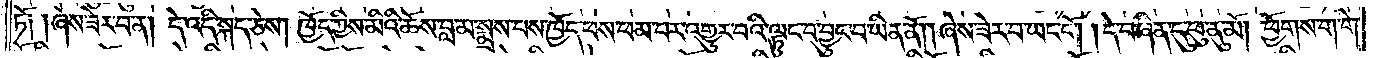ཏོ། །ཞེས་ཟེར་བ་ན། དེ་འདི་སྐད་ཅེས། ཁྱོད་ཀྱིས་མིའི་ཆོས་བླ་མ་སྨྲས་པས་ཁྱོད་ཕས་ཕམ་པར་འགྱུར་བའི་ལྟུང་བ་བྱུང་བ་ཡིན་ནོ། །ཞེས་ཟེར་བ་ཡང་ངོ༌། །དེ་བཞིན་དུ་ཕུ་ནུ་མོ། ཕྱོགས་ག་གེ་
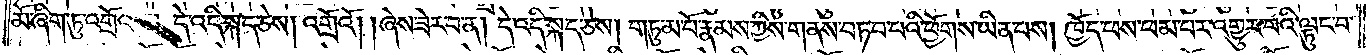མོ་ཞིག་ཏུ་འགྲོའམ། དེ་འདི་སྐད་ཅེས། འགྲོའོ། །ཞེས་ཟེར་བ་ན། དེ་འདི་སྐད་ཅེས། གཏུམ་པོ་རྣམས་ཀྱིས་གནས་བཏབ་པའི་ཕྱོགས་ཡིན་པས། ཁྱོད་ཕས་ཕམ་པར་འགྱུར་བའི་ལྟུང་བ་
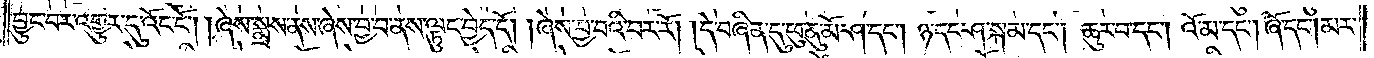བྱུང་བར་འགྱུར་དུ་འོང་ངོ༌། །ཞེས་སྨྲས་ནས་ཞེས་བྱ་བ་ནས་ལྟུང་བྱེད་དོ། །ཞེས་བྱ་བའི་བར་རོ། །དེ་བཞིན་དུ་ཕུ་ནུ་མོ་ཤ་དང༌། ཉ་དང་ཤ་སྐམ་དང༌། ཆུར་བ་དང༌། འོ་མ་དང༌། ཞོ་དང༌། མར་
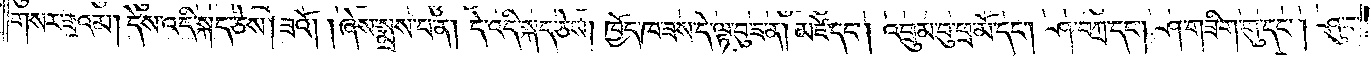གསར་ཟའམ། དེས་འདི་སྐད་ཅེས། ཟའོ། །ཞེས་སྨྲས་པ་ན། དེ་འདི་སྐད་ཅེས། ཁྱོད་ཁ་ཟས་དེ་ལྟ་བུ་ཟ་ན། མཛེ་དང༌། འབྲུམ་བུ་ཕྲ་མོ་དང༌། ཤ་བཀྲ་དང༌། ཤ་གཟིག་གུ་དང༌། ཤུ་བ་
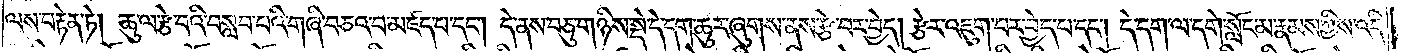ལས་བརྟེན་ཏེ། ཆུ་ལ་རྩེ་བའི་བསླབ་པའི་གཞི་བཅའ་བ་མཛད་པ་དང༌། དེ་ནས་བཅུ་གཉིས་སྡེ་དེ་དག་ཆུར་ཞུགས་ནས་རྩེ་བར་བྱེད། རྩེར་འཇུག་པར་བྱེད་པ་དང༌། དེ་དག་ལ་དགེ་སློང་མ་རྣམས་ཀྱིས་འདི་
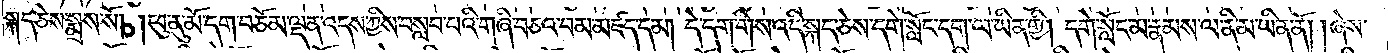སྐད་ཅེས་སྨྲས་སོ། །ཕུ་ནུ་མོ་དག་བཅོམ་ལྡན་འདས་ཀྱིས་བསླབ་པའི་གཞི་བཅའ་བམ་མཛད་དམ། དེ་དག་གིས་འདི་སྐད་ཅེས་དགེ་སློང་དག་ལ་ཡིན་གྱི། དགེ་སློང་མ་རྣམས་ལ་ནི་མ་ཡིན་ནོ། །ཞེས་
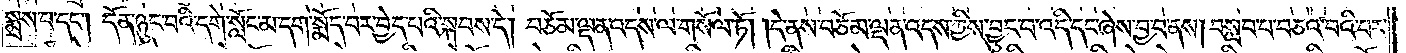སྨྲས་པ་དང༌། དོན་ཉུང་བའི་དགེ་སློང་མ་དག་སྨོད་པར་བྱེད་པའི་སྐབས་དེ། བཅོམ་ལྡན་འདས་ལ་གསོལ་ཏོ། །དེ་ནས་བཅོམ་ལྡན་འདས་ཀྱིས་བྱུང་བ་འདི་དང་ཞེས་བྱ་བ་ནས། བསླབ་པ་བཅའ་བའི་བར་
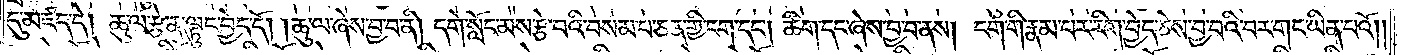དུ་མཛད་དེ། ཆུ་ལ་རྩེ་ན་ལྟུང་བྱེད་དོ། །ཆུ་ལ་ཞེས་བྱ་བ་ནི། དགེ་སློང་མས་རྩེ་བའི་བསམ་པ་ཅན་གྱི་ངག་དང༌། ཚིག་དང་ཞེས་བྱ་བ་ནས། ངག་གི་རྣམ་པར་རིག་བྱེད་ཅེས་བྱ་བའི་བར་གང་ཡིན་པའོ། །
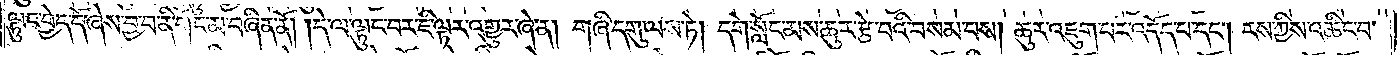ལྟུང་བྱེད་དོ་ཞེས་བྱ་བ་ནི་གོང་མ་བཞིན་ནོ། །དེ་ལ་ལྟུང་བར་ཇི་ལྟར་འགྱུར་ཞེ་ན། གཞི་དགུ་ལས་ཏེ། དགེ་སློང་མས་ཆུར་རྩེ་བའི་བསམ་པས། ཆུར་འཇུག་པར་འདོད་པ་དང༌། རས་ཀྱིས་འཆིང་བ་
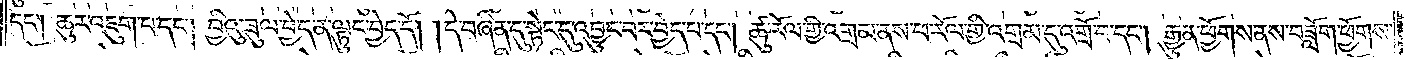དང༌། ཆུར་འཇུག་པ་དང༌། བྱིའུ་ཟུལ་བྱེད་ན་ལྟུང་བྱེད་དོ། །དེ་བཞིན་དུ་སྟེང་དུ་འབྱུང་བར་བྱེད་པ་དང༌། ཚུ་རོལ་གྱི་འགྲམ་ནས་ཕ་རོལ་གྱི་འགྲམ་དུ་འགྲོ་བ་དང༌། རྒྱུན་ཕྱོགས་ནས་བཟློག་ཕྱོགས་
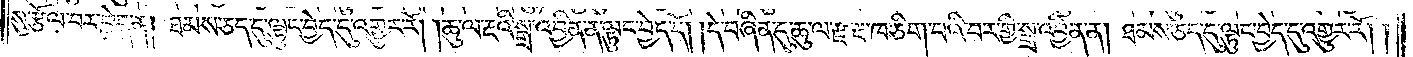སུ་རྩོལ་བར་བྱེད་ན། ཐམས་ཅད་དུ་ལྟུང་བྱེད་དུ་འགྱུར་རོ། །ཆུ་ལ་རྔའི་སྒྲ་འབྱིན་ན་ལྟུང་བྱེད་དོ། །དེ་བཞིན་དུ་ཆུ་ལ་རྫ་རྔ་ཁ་ཅིག་པའི་བར་གྱི་སྒྲ་འབྱིན་ན། ཐམས་ཅད་དུ་ལྟུང་བྱེད་དུ་འགྱུར་རོ། །
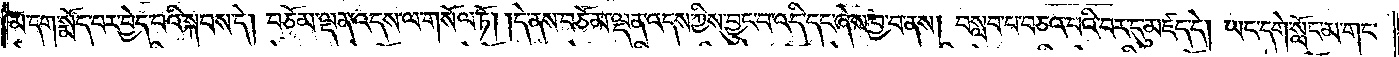མ་དག་སྨོད་པར་བྱེད་པའི་སྐབས་དེ། བཅོམ་ལྡན་འདས་ལ་གསོལ་ཏོ། །དེ་ནས་བཅོམ་ལྡན་འདས་ཀྱིས་བྱུང་བ་འདི་དང་ཞེས་བྱ་བ་ནས། བསླབ་པ་བཅའ་བའི་བར་དུ་མཛད་དེ། ཡང་དགེ་སློང་མ་གང་
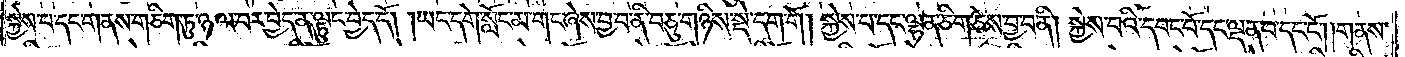སྐྱེས་པ་དང་གནས་གཅིག་ཏུ་ཉལ་བར་བྱེད་ན་ལྟུང་བྱེད་དོ། །ཡང་དགེ་སློང་མ་གང་ཞེས་བྱ་བ་ནི་བཅུ་གཉིས་སྡེ་དག་གོ། སྐྱེས་པ་དང་ལྷན་ཅིག་ཅེས་བྱ་བ་ནི། སྐྱེས་པའི་དབང་པོ་དང་ལྡན་པ་དང་ངོ༌། །གནས་
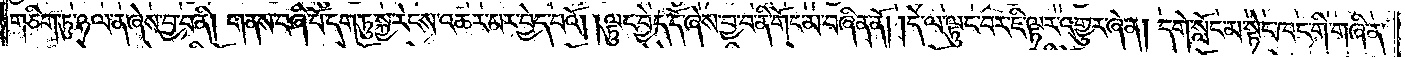གཅིག་ཏུ་ཉལ་ན་ཞེས་བྱ་བ་ནི། གནས་བཞི་པོ་དག་ཏུ་སྐྱ་རེངས་འཆར་པར་བྱེད་པའོ། །ལྟུང་བྱེད་དོ་ཞེས་བྱ་བ་ནི་གོང་མ་བཞིན་ནོ། །དེ་ལ་ལྟུང་བར་ཇི་ལྟར་འགྱུར་ཞེ་ན། དགེ་སློང་མ་སྟེང་ཁང་གི་གཞི་ན་
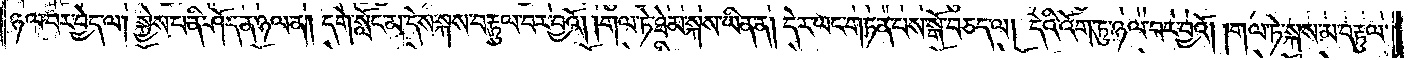ཉལ་བར་བྱེད་ལ། སྐྱེས་པ་ནི་ཤོད་ན་ཉལ་ན། དགེ་སློང་མ་དེས་སྐས་བརྟུལ་བར་བྱའོ། །གལ་ཏེ་ཐེམ་སྐས་ཡིན་ན། དེར་ཡང་གཏན་པས་སྒོ་བཅད་ལ། དེའི་འོག་ཏུ་ཉལ་བར་བྱའོ། །གལ་ཏེ་སྐས་མ་བརྟུལ་
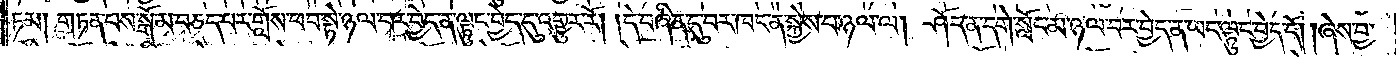ཏམ། གཏན་པས་སྒོ་མ་བཅད་པར་གློས་ཕབ་སྟེ་ཉལ་བར་བྱེད་ན་ལྟུང་བྱེད་དུ་འགྱུར་རོ། །དེ་བཞིན་དུ་བར་ཁང་ན་སྐྱེས་པ་ཉལ་ལ། ཤོད་ན་དགེ་སློང་མ་ཉལ་བར་བྱེད་ན་ཡང་ལྟུང་བྱེད་དོ། །ཞེས་བྱ་
